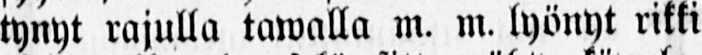tynyt rajulla tawalla m. m. lyönyt rikki
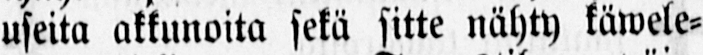useita akkunoita sekä sitte nähty käwele-
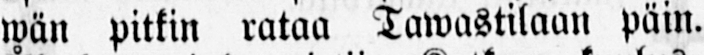wän pitkin rataa Tawastilaan päin.
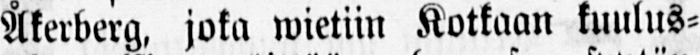Åkerberg, joka wietiin Kotkaan kuulus-
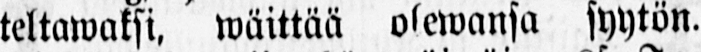teltawaksi, wäittää olewansa syytön.
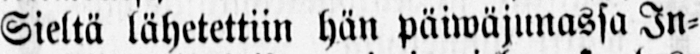Sieltä lähetettiin hän päiwäjunassa In-
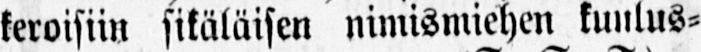keroisiin sikäläisen nimismiehen kuulus-
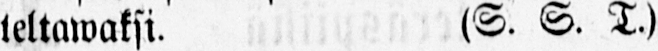teltawaksi. (S. S. T.)
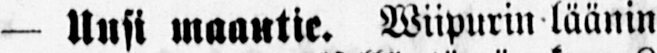— Uusi maantie. Wiipurin läänin
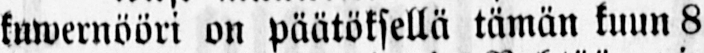kuwernööri on päätöksellä tämän kuun 8
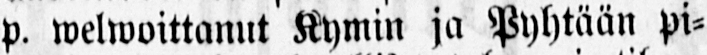p. welwoittanut Kymin ja Pyhtään pi-
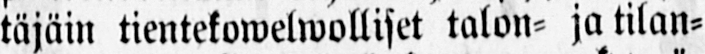täjäin tientekowelwolliset talon- ja tilan-
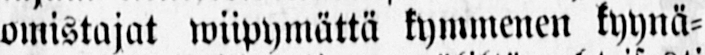omistajat wiipymättä kymmenen kyynä-
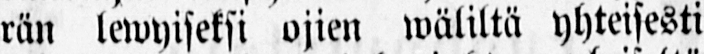rän lewyiseksi ojien wäliltä yhteisesti
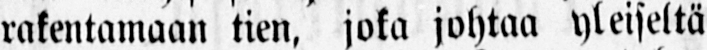rakentamaan tien, joka johtaa yleiseltä
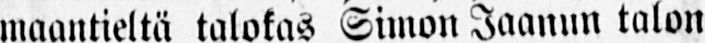maantieltä talokas Simon Jaanun talon
